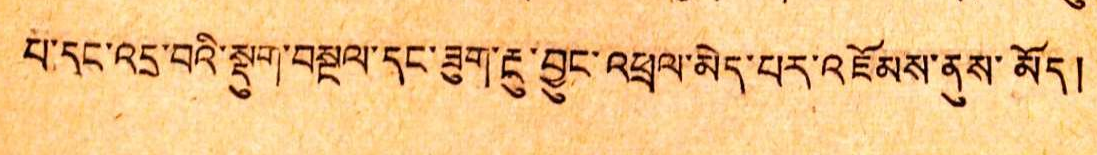པ་དང་འདྲ་བའི་སྡུག་བསྔལ་དང་ཟུག་རྔུ་བྱུང་འཕྲལ་མེད་པར་འཇོམས་ནུས་མོད།
